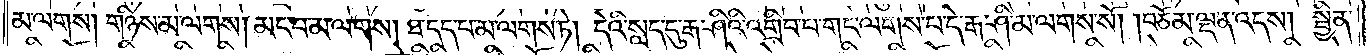མ་ལགས། གཉིས་མ་ལགས། མང་བ་མ་ལགས། ཐ་དད་པ་མ་ལགས་ཏེ། དེའི་སླད་དུ་རྒ་ཤིའི་འགྲིབ་པ་གང་ལགས་པ་དེ་རྒ་ཤི་མ་ལགས་སོ། །བཅོམ་ལྡན་འདས། སྦྱིན་
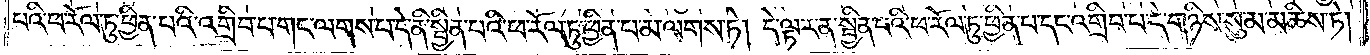པའི་ཕ་རོལ་ཏུ་ཕྱིན་པའི་འགྲིབ་པ་གང་ལགས་པ་དེ་ནི་སྦྱིན་པའི་ཕ་རོལ་ཏུ་ཕྱིན་པ་མ་ལགས་ཏེ། དེ་ལྟར་ན་སྦྱིན་པའི་ཕ་རོལ་ཏུ་ཕྱིན་པ་དང་འགྲིབ་པ་དེ་གཉིས་སུ་མ་མཆིས་ཏེ།
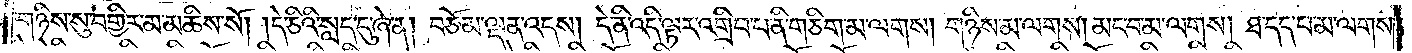གཉིས་སུ་བགྱིར་མ་མཆིས་སོ། །དེ་ཅིའི་སླད་དུ་ཞེ་ན། བཅོམ་ལྡན་འདས། དེ་ནི་འདི་ལྟར་འགྲིབ་པ་ནི་གཅིག་མ་ལགས། གཉིས་མ་ལགས། མང་བ་མ་ལགས། ཐ་དད་པ་མ་ལགས་
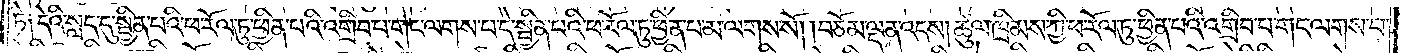ཏེ༑ དེའི་སླད་དུ་སྦྱིན་པའི་ཕ་རོལ་ཏུ་ཕྱིན་པའི་འགྲིབ་པ་གང་ལགས་པ་དེ་སྦྱིན་པའི་ཕ་རོལ་ཏུ་ཕྱིན་པ་མ་ལགས་སོ། །བཅོམ་ལྡན་འདས། ཚུལ་ཁྲིམས་ཀྱི་ཕ་རོལ་ཏུ་ཕྱིན་པའི་འགྲིབ་པ་གང་ལགས་པ་
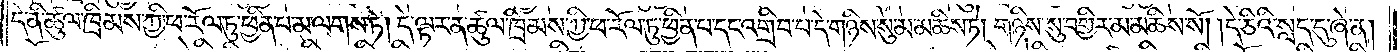དེ་ནི་ཚུལ་ཁྲིམས་ཀྱི་ཕ་རོལ་ཏུ་ཕྱིན་པ་མ་ལགས་ཏེ། དེ་ལྟར་ན་ཚུལ་ཁྲིམས་ཀྱི་ཕ་རོལ་ཏུ་ཕྱིན་པ་དང་འགྲིབ་པ་དེ་གཉིས་སུ་མ་མཆིས་ཏེ། གཉིས་སུ་བགྱིར་མ་མཆིས་སོ། །དེ་ཅིའི་སླད་དུ་ཞེ་ན།
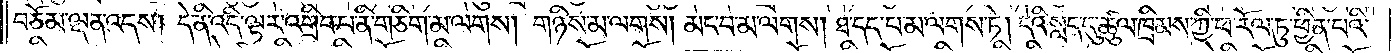བཅོམ་ལྡན་འདས། དེ་ནི་འདི་ལྟར་འགྲིབ་པ་ནི་གཅིག་མ་ལགས། གཉིས་མ་ལགས། མང་བ་མ་ལགས། ཐ་དད་པ་མ་ལགས་ཏེ། དེའི་སླད་དུ་ཚུལ་ཁྲིམས་ཀྱི་ཕ་རོལ་ཏུ་ཕྱིན་པའི་
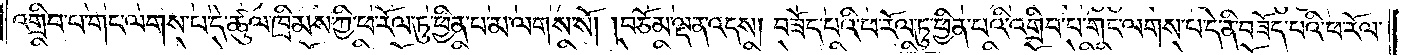འགྲིབ་པ་གང་ལགས་པ་དེ་ཚུལ་ཁྲིམས་ཀྱི་ཕ་རོལ་ཏུ་ཕྱིན་པ་མ་ལགས་སོ༑། །བཅོམ་ལྡན་འདས། བཟོད་པའི་ཕ་རོལ་ཏུ་ཕྱིན་པའི་འགྲིབ་པ་གང་ལགས་པ་དེ་ནི་བཟོད་པའི་ཕ་རོལ་
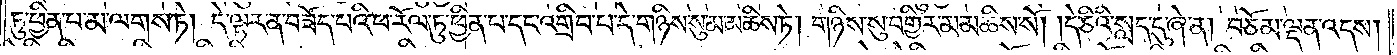ཏུ་ཕྱིན་པ་མ་ལགས་ཏེ། དེ་ལྟར་ན་བཟོད་པའི་ཕ་རོལ་ཏུ་ཕྱིན་པ་དང་འགྲིབ་པ་དེ་གཉིས་སུ་མ་མཆིས་ཏེ། གཉིས་སུ་བགྱིར་མ་མཆིས་སོ། །དེ་ཅིའི་སླད་དུ་ཞེ་ན། བཅོམ་ལྡན་འདས།
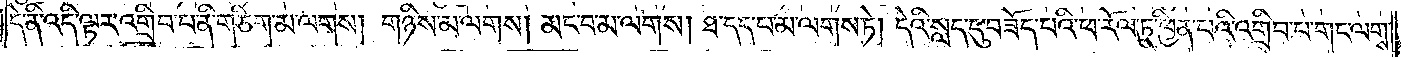དེ་ནི་འདི་ལྟར་འགྲིབ་པ་ནི་གཅིག་མ་ལགས། གཉིས་མ་ལགས། མང་བ་མ་ལགས། ཐ་དད་པ་མ་ལགས་ཏེ། དེའི་སླད་དུ་བཟོད་པའི་ཕ་རོལ་ཏུ་ཕྱིན་པའི་འགྲིབ་པ་གང་ལགས་
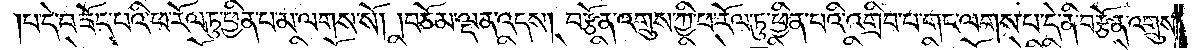པ་དེ་བཟོད་པའི་ཕ་རོལ་ཏུ་ཕྱིན་པ་མ་ལགས་སོ། །བཅོམ་ལྡན་འདས། བརྩོན་འགྲུས་ཀྱི་ཕ་རོལ་ཏུ་ཕྱིན་པའི་འགྲིབ་པ་གང་ལགས་པ་དེ་ནི་བརྩོན་འགྲུས་
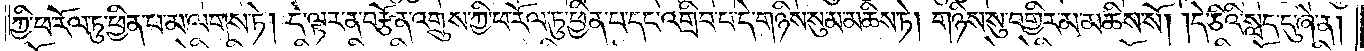ཀྱི་ཕ་རོལ་ཏུ་ཕྱིན་པ་མ་ལགས་ཏེ། དེ་ལྟར་ན་བརྩོན་འགྲུས་ཀྱི་ཕ་རོལ་ཏུ་ཕྱིན་པ་དང་འགྲིབ་པ་དེ་གཉིས་སུ་མ་མཆིས་ཏེ། གཉིས་སུ་བགྱིར་མ་མཆིས་སོ། །དེ་ཅིའི་སླད་དུ་ཞེ་ན།
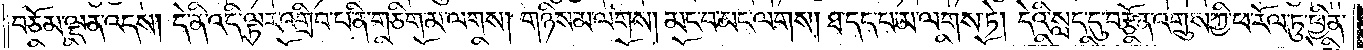བཅོམ་ལྡན་འདས། དེ་ནི་འདི་ལྟར་འགྲིབ་པ་ནི་གཅིག་མ་ལགས། གཉིས་མ་ལགས། མང་བ་མ་ལགས། ཐ་དད་པ་མ་ལགས་ཏེ། དེའི་སླད་དུ་བརྩོན་འགྲུས་ཀྱི་ཕ་རོལ་ཏུ་ཕྱིན་
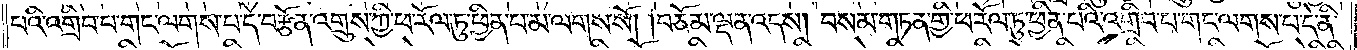པའི་འགྲིབ་པ་གང་ལགས་པ་དེ་བརྩོན་འགྲུས་ཀྱི་ཕ་རོལ་ཏུ་ཕྱིན་པ་མ་ལགས་སོ། །བཅོམ་ལྡན་འདས། བསམ་གཏན་གྱི་ཕ་རོལ་ཏུ་ཕྱིན་པའི་འགྲིབ་པ་གང་ལགས་པ་དེ་ནི་
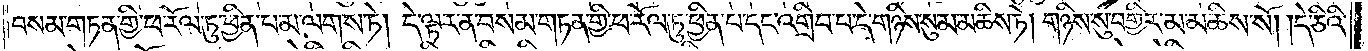བསམ་གཏན་གྱི་ཕ་རོལ་ཏུ་ཕྱིན་པ་མ་ལགས་ཏེ། དེ་ལྟར་ན་བསམ་གཏན་གྱི་ཕ་རོལ་ཏུ་ཕྱིན་པ་དང་འགྲིབ་པ་དེ་གཉིས་སུ་མ་མཆིས་ཏེ། གཉིས་སུ་བགྱིར་མ་མཆིས་སོ། །དེ་ཅིའི་
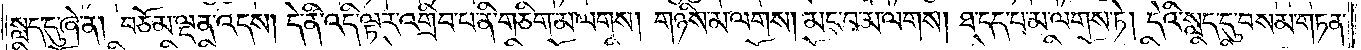སླད་དུ་ཞེ་ན། བཅོམ་ལྡན་འདས། དེ་ནི་འདི་ལྟར་འགྲིབ་པ་ནི་གཅིག་མ་ལགས། གཉིས་མ་ལགས། མང་བ་མ་ལགས། ཐ་དད་པ་མ་ལགས་ཏེ། དེའི་སླད་དུ་བསམ་གཏན་
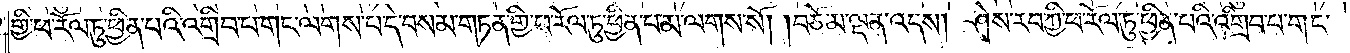གྱི་ཕ་རོལ་ཏུ་ཕྱིན་པའི་འགྲིབ་པ་གང་ལགས་པ་དེ་བསམ་གཏན་གྱི་ཕ་རོལ་ཏུ་ཕྱིན་པ་མ་ལགས་སོ། །བཅོམ་ལྡན་འདས། ཤེས་རབ་ཀྱི་ཕ་རོལ་ཏུ་ཕྱིན་པའི་འགྲིབ་པ་གང་
